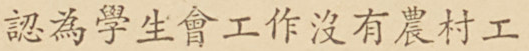認爲學生會工作沒有農村工
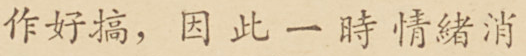作好搞，因此一時情緒消
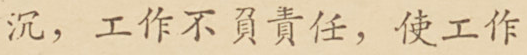沉，工作不負責任，使工作
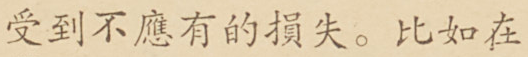受到不應有的損失。比如在
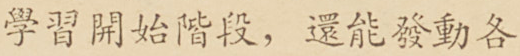學習開始階段，還能發動各
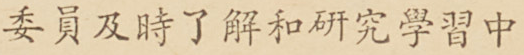委員及時了解和研究學習中
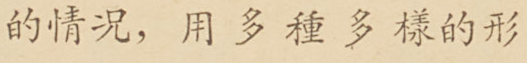的情況，用多種多樣的形
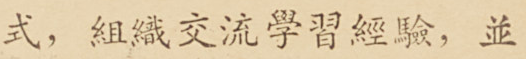式，組織交流學習經驗，並
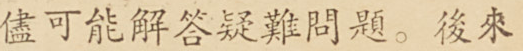儘可能解答疑難問題。後來
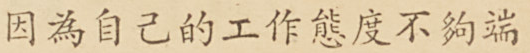因爲自己的工作態度不夠端
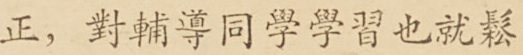正，對輔導同學學習也就鬆
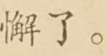懈了。
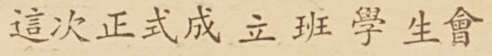這次正式成立班學生會
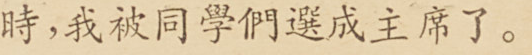時，我被同學們選成主席了。
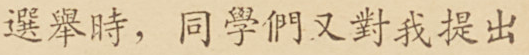選舉時，同學們又對我提出
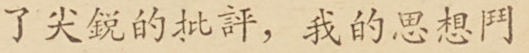了尖銳的批評，我的思想鬥
